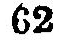62
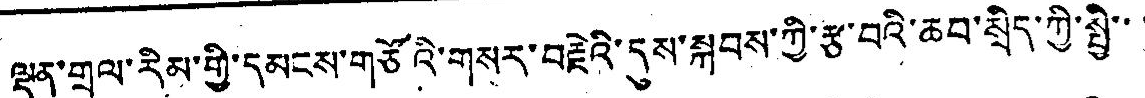ལྡན་གྲལ་རིམ་གྱི་དམངས་གཙོའི་གསར་བརྗེའི་དུས་སྐབས་ཀྱི་རྩ་བའི་ཆབ་སྲིད་ཀྱི་སྤྱི་་་
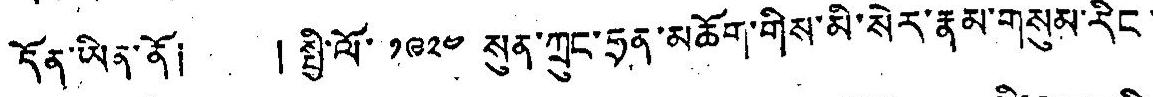དོན་ཡིན་ནོ། ། སྤྱི་ལོ་ ༡༩༢༤ སུན་ཀྲུང་ཧྲན་མཆོག་གིས་མི་སེར་རྣམ་གསུམ་རིང་
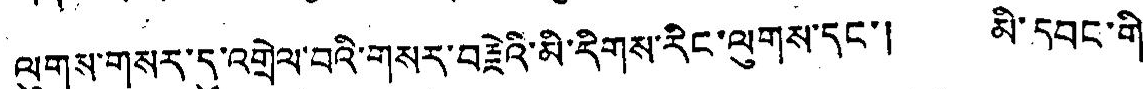ལུགས་གསར་དུ་འགྲེལ་བའི་གསར་བརྗེའི་མི་རིགས་རིང་ལུགས་དང་། མི་དབང་གི་
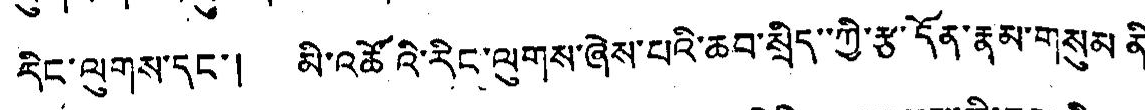རིང་ལུགས་དང་། མི་འཚོའི་རིང་ལུགས་ཞེས་པའི་ཆབ་སྲིད་་ཀྱི་རྩ་དོན་རྣམ་གསུམ ནི་
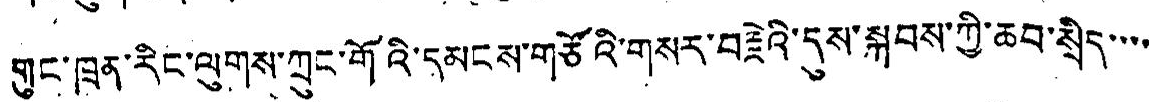གུང་ཁྲན་རིང་ལུགས་ཀྲུང་གོའི་དམངས་གཙོའི་གསར་བརྗེའི་དུས་སྐབས་ཀྱི་ཆབ་སྲིད་་་་
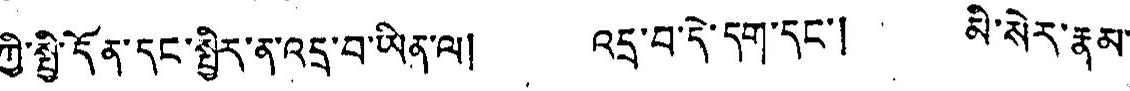ཀྱི་སྤྱི་དོན་དང་སྤྱིར་ན་འདྲ་བ་ཡིན་ལ། འདྲ་བ་དེ་དག་དང་། མི་སེར་རྣམ་
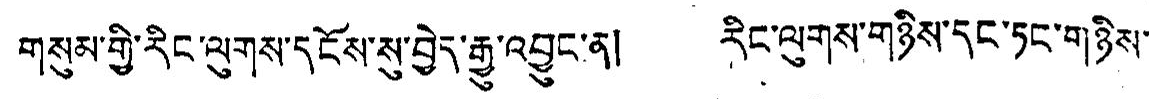གསུམ་གྱི་རིང་ལུགས་དངོས་སུ་བྱེད་རྒྱུ་འབྱུང་ན། རིང་ལུགས་གཉིས་དང་ཏང་གཉིས་
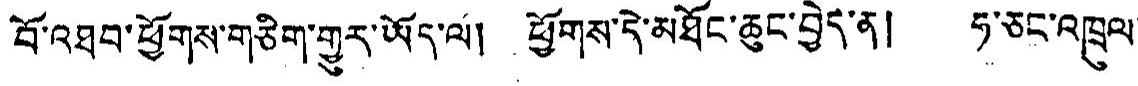བོ་འཐབ་ཕྱོགས་གཅིག་གྱུར་ཡོད་ལ། ཕྱོགས་དེ་མཐོང་ཆུང་བྱེད་ན། ཧ་ཅང་འཁྲུལ་
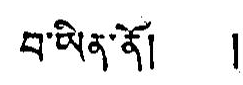བ་ཡིན་ནོ། །
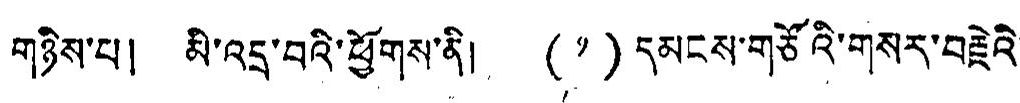གཉིས་པ། མི་འདྲ་བའི་ཕྱོགས་ནི། (༡) དམངས་གཙོའི་གསར་བརྗེའི་
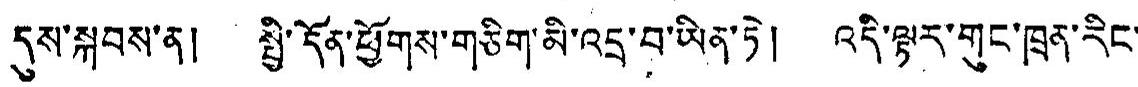དུས་སྐབས་ན། སྤྱི་དོན་ཕྱོགས་གཅིག་མི་འདྲ་བ་ཡིན་ཏེ། འདི་ལྟར་གུང་ཁྲན་རིང་
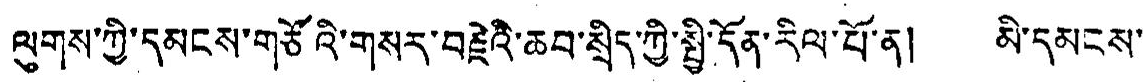ལུགས་ཀྱི་དམངས་གཙོའི་གསར་བརྗེའི་ཆབ་སྲིད་ཀྱི་སྤྱི་དོན་རིལ་པོ་ན། མི་དམངས་
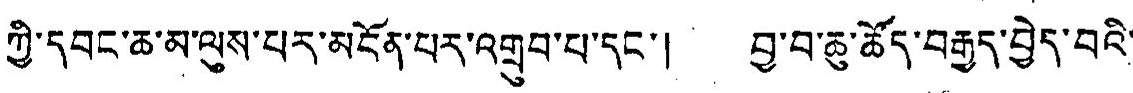ཀྱི་དབང་ཆ་མ་ལུས་པར་མངོན་པར་འགྲུབ་པ་དང་། བྱས་བ་ཆུ་ཚོད་བརྒྱུད་བྱེད་བའི་
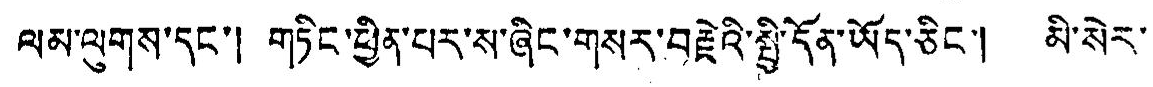ལམ་ལུགས་དང་། གཏིང་ཕྱིན་པར་ས་ཞིང་གསར་བརྗེའི་སྤྱི་དོན་ཡོད་ཅིང་། མི་སེར
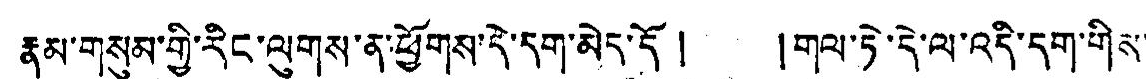རྣམ་གསུམ་གྱི་རིང་ལུགས་ན་ཕྱོགས་དེ་དག་མེད་དོ ། །གལ་ཏེ་དེ་ལ་འདི་དག་གིས་
